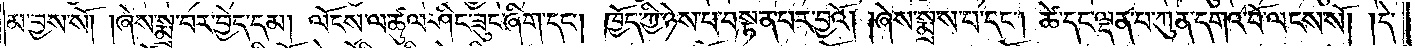མ་བྱས་སོ། །ཞེས་སྨྲ་བར་བྱེད་དམ། ལོངས་ལ་ཚུལ་ཤིང་ཟུང་ཞིག་དང༌། ཁྱོད་ཀྱི་ཉེས་པ་བསྟན་པར་བྱའོ། །ཞེས་སྨྲས་པ་དང༌། ཚེ་དང་ལྡན་པ་ཀུན་དགའ་བོ་ལངས་སོ། །དེ་
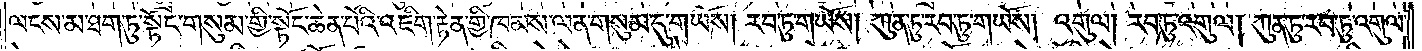ལངས་མ་ཐག་ཏུ་སྟོང་གསུམ་གྱི་སྟོང་ཆེན་པོའི་འཇིག་རྟེན་གྱི་ཁམས་ལན་གསུམ་དུ་གཡོས། རབ་ཏུ་གཡོས། ཀུན་ཏུ་རབ་ཏུ་གཡོས། འགུལ། རབ་ཏུ་འགུལ། ཀུན་ཏུ་རབ་ཏུ་འགུལ་
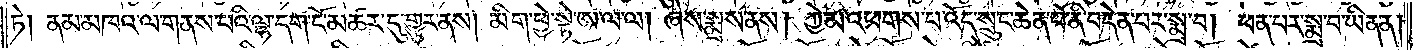ཏེ། ནམ་མཁའ་ལ་གནས་པའི་ལྷ་དག་ངོ་མཚར་དུ་གྱུར་ནས། མིག་ཕྱེ་སྟེ་ཨ་ལ་ལ། ཞེས་སྨྲས་ནས། ཀྱེ་མ་འཕགས་པ་འོད་སྲུང་ཆེན་པོ་ནི་བདེན་པར་སྨྲ་བ། ཕན་པར་སྨྲ་བ་ཡིན་ན།
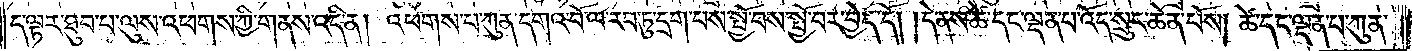ད་ལྟར་ཐུབ་པ་ལུས་འཕགས་ཀྱི་གནས་འདི་ན། འཕགས་པ་ཀུན་དགའ་བོ་ལ་རབ་ཏུ་དྲག་པས་སྤྱོ་བས་སྤྱོ་བར་བྱེད་དོ། །དེ་ནས་ཚེ་དང་ལྡན་པ་འོད་སྲུང་ཆེན་པོས། ཚེ་དང་ལྡན་པ་ཀུན་
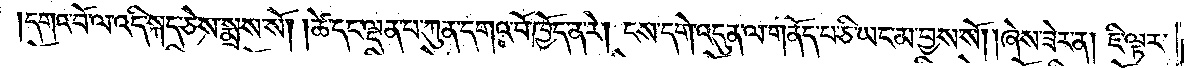།དགའ་བོ་ལ་འདི་སྐད་ཅེས་སྨྲས་སོ། །ཚེ་དང་ལྡན་པ་ཀུན་དགའ་བོ་ཁྱོད་ན་རེ། ངས་དགེ་འདུན་ལ་གནོད་པ་ཅི་ཡང་མ་བྱས་སོ། །ཞེས་ཟེར་ན། ཇི་ལྟར་
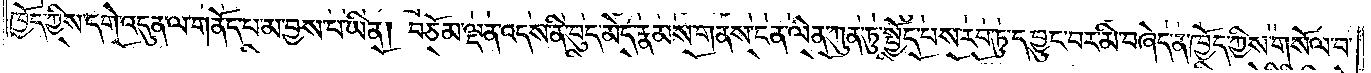ཁྱོད་ཀྱིས་དགེ་འདུན་ལ་གནོད་པ་མ་བྱས་པ་ཡིན། བཅོམ་ལྡན་འདས་ནི་བུད་མེད་རྣམས་གནས་ངན་ལེན་ཀུན་ཏུ་སྤྱོད་པས་རབ་ཏུ་དབྱུང་བར་མི་བཞེད་ན་ཁྱོད་ཀྱིས་གསོལ་བ་
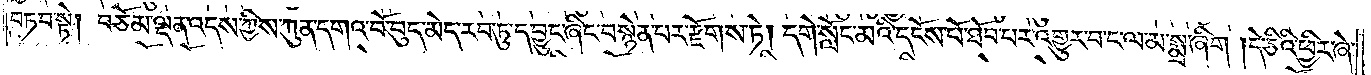བཏབ་སྟེ། བཅོམ་ལྡན་འདས་ཀྱིས་ཀུན་དགའ་བོ་བུད་མེད་རབ་ཏུ་དབྱུང་ཞིང་བསྙེན་པར་རྫོགས་ཏེ། དགེ་སློང་མའི་དངོས་པོ་ཐོབ་པར་འགྱུར་བ་ང་ལ་མ་སྨྲ་ཞིག །དེ་ཅིའི་ཕྱིར་ཞེ་
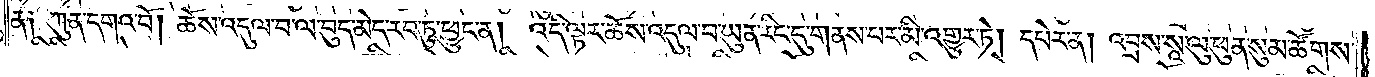ན༑ ཀུན་དགའ་བོ། ཆོས་འདུལ་བ་ལ་བུད་མེད་རབ་ཏུ་ཕྱུང་ན། འདི་ལྟར་ཆོས་འདུལ་བ་ཡུན་རིང་དུ་གནས་པར་མི་འགྱུར་ཏེ། དཔེར་ན། འབྲས་སཱ་ལུ་ཕུན་སུམ་ཚོགས་
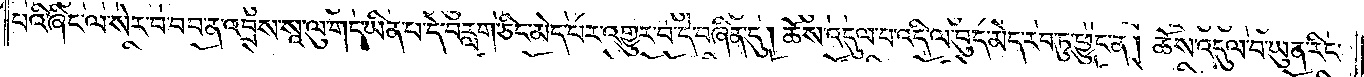པའི་ཞིང་ལ་སེར་བ་བབ་ན་འབྲས་སཱ་ལུ་གང་ཡིན་པ་དེ་བརླག་ཅིང་མེད་པར་འགྱུར་བ་དེ་བཞིན་དུ། ཆོས་འདུལ་བ་འདི་ལ་བུད་མེད་རབ་ཏུ་ཕྱུང་ན། ཆོས་འདུལ་བ་ཡུན་རིང་
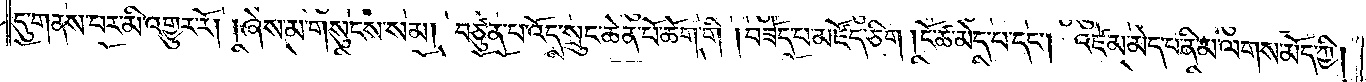དུ་གནས་པར་མི་འགྱུར་རོ། །ཞེས་མ་གསུངས་སམ། བཙུན་པ་འོད་སྲུང་ཆེན་པོ་ཆོག་གི །བཟོད་པ་མཛོད་ཅིག །ངོ་ཚ་མེད་པ་དང༌། འཛེམ་མེད་པ་ནི་མ་ལགས་མོད་ཀྱི།
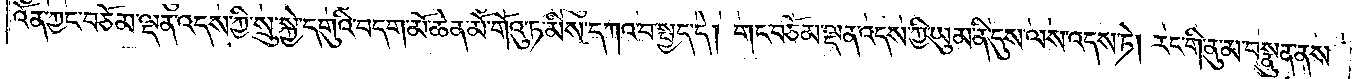འོན་ཀྱང་བཅོམ་ལྡན་འདས་ཀྱི་སྲུ་སྐྱེ་དགུའི་བདག་མོ་ཆེན་མོ་གོའུ་ཏ་མིས་དཀའ་བ་སྤྱད་དེ། གང་བཅོམ་ལྡན་འདས་ཀྱི་ཡུམ་ནི་དུས་ལས་འདས་ཏེ། རང་གི་ནུ་མ་བསྣུན་ནས་
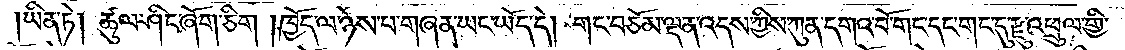ཡིན་ཏེ། ཚུལ་ཤིང་ཞོག་ཅིག །ཁྱོད་ལ་ཉེས་པ་གཞན་ཡང་ཡོད་དེ། གང་བཅོམ་ལྡན་འདས་ཀྱིས་ཀུན་དགའ་བོ་གང་དང་གང་དུ་རྫུ་འཕྲུལ་གྱི་
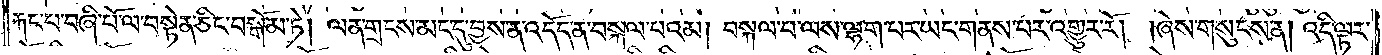རྐང་པ་བཞི་པོ་ལ་བསྟེན་ཅིང་བསྒོམ་ཏེ། ལན་གྲངས་མང་དུ་བྱས་ན་འདོད་ན་བསྐལ་པའམ། བསྐལ་པ་ལས་ལྷག་པར་ཡང་གནས་པར་འགྱུར་རོ། །ཞེས་གསུངས་ན། འདི་ལྟར་
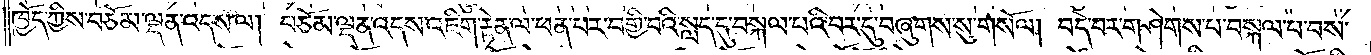ཁྱོད་ཀྱིས་བཅོམ་ལྡན་འདས་ལ། བཅོམ་ལྡན་འདས་འཇིག་རྟེན་ལ་ཕན་པར་བགྱི་བའི་སླད་དུ་བསྐལ་པའི་བར་དུ་བཞུགས་སུ་གསོལ། བདེ་བར་གཤེགས་པ་བསྐལ་པ་བས་
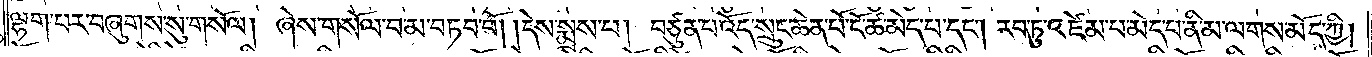ལྷག་པར་བཞུགས་སུ་གསོལ། ཞེས་གསོལ་བ་མ་བཏབ་བོ། །དེས་སྨྲས་པ། བཙུན་པ་འོད་སྲུང་ཆེན་པོ་ངོ་ཚ་མེད་པ་དང༌། རབ་ཏུ་འཛེམ་པ་མེད་པ་ནི་མ་ལགས་མོད་ཀྱི།
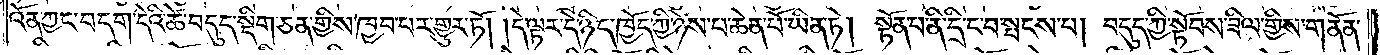འོན་ཀྱང་བདག་དེའི་ཚེ་བདུད་སྡིག་ཅན་གྱིས་ཁྱབ་པར་གྱུར་ཏོ། །དེ་ལྟར་དེ་ཉིད་ཁྱོད་ཀྱི་ཉེས་པ་ཆེན་པོ་ཡིན་ཏེ། སྟོན་པ་ནི་དྲི་ང་བ་སྤངས་པ། བདུད་ཀྱི་སྟོབས་ཟིལ་གྱིས་གནོན་
